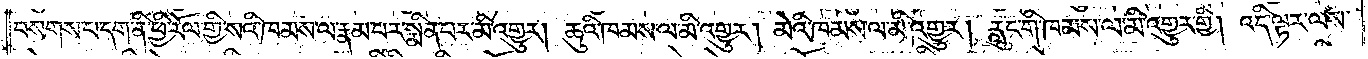བསགས་པ་དག་ནི་ཕྱི་རོལ་གྱི་སའི་ཁམས་ལ་རྣམ་པར་སྨིན་པར་མི་འགྱུར། ཆུའི་ཁམས་ལ་མི་འགྱུར། མེའི་ཁམས་ལ་མི་འགྱུར། རླུང་གི་ཁམས་ལ་མི་འགྱུར་གྱི། འདི་ལྟར་ལས་
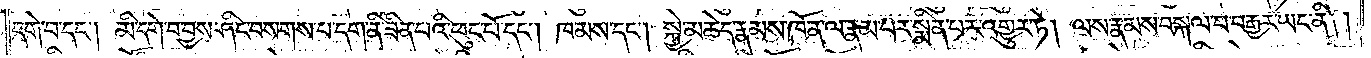དགེ་བ་དང༌། མི་དགེ་བ་བྱས་ཤིང་བསགས་པ་དག་ནི་ཟིན་པའི་ཕུང་པོ་དང༌། ཁམས་དང༌། སྐྱེ་མཆེད་རྣམས་ཁོ་ན་ལ་རྣམ་པར་སྨིན་པར་འགྱུར་ཏེ། ལས་རྣམས་བསྐལ་པ་བརྒྱར་ཡང་ནི། །
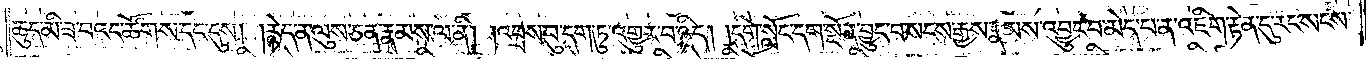ཆུད་མི་ཟ་བའང་ཚོགས་དང་དུས། །རྙེད་ན་ལུས་ཅན་རྣམས་ལ་ནི། །འབྲས་བུ་དག་ཏུ་འགྱུར་བ་ཉིད། །དགེ་སློང་དག་སྔོན་བྱུང་བ་སངས་རྒྱས་རྣམས་འབྱུང་བ་མེད་པ་ན་འཇིག་རྟེན་དུ་རང་སངས་
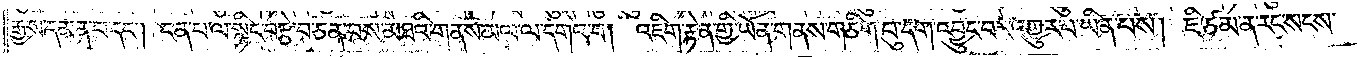རྒྱས་དམན་པ་དང༌། ངན་པ་ལ་སྙིང་བརྩེ་བ་ཅན་པས་མཐའི་གནས་མལ་ལ་དགའ་བ། འཇིག་རྟེན་གྱི་ཡོན་གནས་གཅིག་བུ་དག་འབྱུང་བར་འགྱུར་བ་ཡིན་པས། ཇི་ཙམ་ན་རང་སངས་
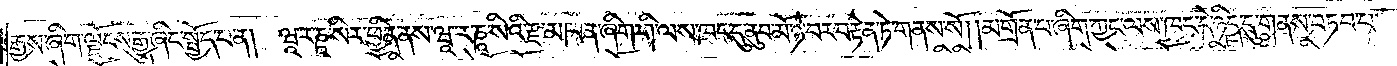རྒྱས་ཞིག་ལྗོངས་རྒྱུ་ཞིང་སྤྱོད་པ་ན། ཝཱ་ར་ཎཱ་སིར་ཕྱིན་ནས་ཝཱ་ར་ཎཱ་སིའི་རྫ་མཁན་ཞིག་གི་ལས་ཁང་དུ་ནུབ་མོ་ཉེ་བར་བརྟེན་ཏེ་གནས་སོ། །མགྲོན་པ་ཞིག་ཀྱང་ལས་ཁང་དེ་ཉིད་དུ་གནས་བཏབ་པ་
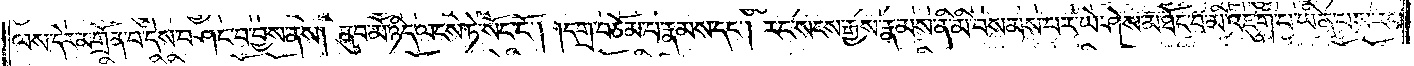ལས་དེར་མགྲོན་པ་དེས་བཤང་བ་བྱས་ནས། ནུབ་མོ་ཉིད་ལངས་ཏེ་སོང་ངོ༌། །དགྲ་བཅོམ་པ་རྣམས་དང༌། རང་སངས་རྒྱས་རྣམས་ནི་མི་བསམས་པར་ཡེ་ཤེས་མཐོང་བ་མི་འཇུག་པ་ཡིན་པས་རང་
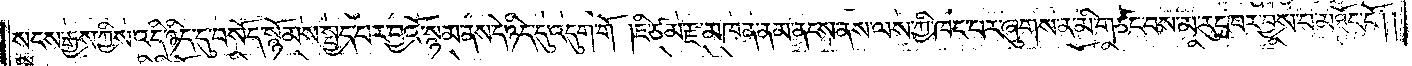སངས་རྒྱས་ཀྱིས་འདི་ཉིད་དུ་བསོད་སྙོམས་སྤྱད་པར་བྱའོ་སྙམ་ནས་དེ་ཉིད་དུ་འདུག་གོ །ཇི་ཙམ་རྫ་མཁན་ནམ་ནངས་ནས་ལས་ཀྱི་ཁང་པར་ཞུགས་ན་མི་གཙང་བས་མ་རུང་བར་བྱས་པ་མཐོང་ངོ༌༎
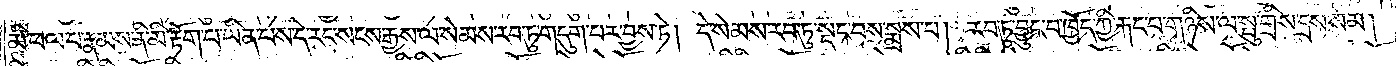མི་ཕལ་པ་རྣམས་ནི་མི་རྟོག་པ་ཡིན་པས་དེ་རང་སངས་རྒྱས་ལ་སེམས་རབ་ཏུ་གདུག་པར་བྱས་ཏེ། དེ་སེམས་རབ་ཏུ་སྡང་བས་སྨྲས་པ། རབ་ཏུ་བྱུང་བ་ཁྱོད་ཀྱི་རྐང་པ་གཉིས་ལ་སྤུ་གྲིས་དྲས་སམ།
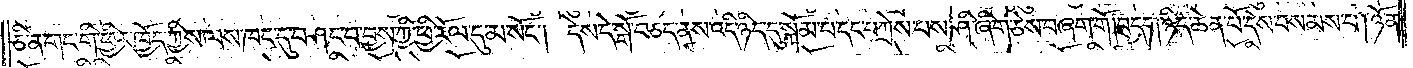ཅི་ན་གང་གི་ཕྱིར་ཁྱོད་ཀྱིས་ལས་ཁང་དུ་བཤང་བ་བྱས་ཀྱི་ཕྱི་རོལ་དུ་མ་སོང༌། དེས་དེ་སྒོ་བཅད་ནས་འདི་ཉིད་དུ་སྐོམ་པ་དང་བཀྲེས་པས་ཤི་ཞིག་ཅེས་བཞག་གོ །བདག་ཉིད་ཆེན་པོ་དེས་བསམས་པ། ཉོན་
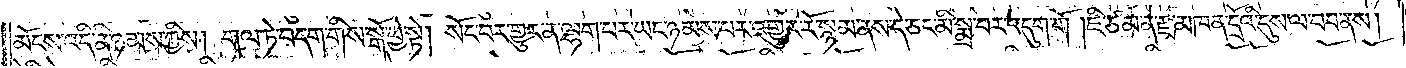མོངས་འདི་ནི་ཉམས་ཀྱིས། གལ་ཏེ་བདག་གིས་སྒོ་ཕྱེ་སྟེ། སོང་བར་གྱུར་ན་ལྷག་པར་ཡང་ཉམས་པར་འགྱུར་རོ་སྙམ་ནས་དེ་ཅང་མི་སྨྲ་བར་འདུག་གོ །ཇི་ཙམ་ན་རྫ་མཁན་དྲོའི་དུས་ལ་བབ་ནས།
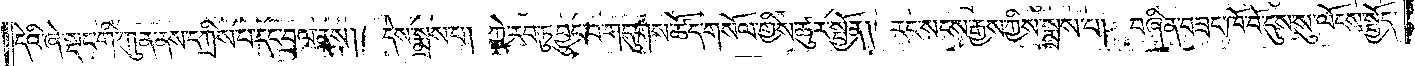དེའི་ཞེ་སྡང་གི་ཀུན་ནས་དཀྲིས་པ་དང་བྲལ་ནས། དེས་སྨྲས་པ། ཀྱེ་རབ་ཏུ་བྱུང་བ་གདུགས་ཚོད་གསོལ་གྱིས་ཚུར་སྤྱོན། རང་སངས་རྒྱས་ཀྱིས་སྨྲས་པ། བཞིན་བཟང་ཁོ་བོ་དུས་སུ་ལོངས་སྤྱོད་
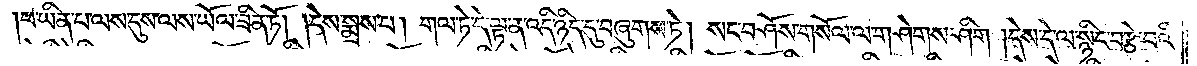།པ་ཡིན་པ་ལས་དུས་ལས་ཡོལ་ཟིན་ཏོ། །དེས་སྨྲས་པ། གལ་ཏེ་དེ་ལྟ་ན་འདི་ཉིད་དུ་བཞུགས་ཏེ། སང་བཤོས་གསོལ་ལ་གཤེགས་ཤིག །དེས་དེ་ལ་སྙིང་བརྩེ་བའི་
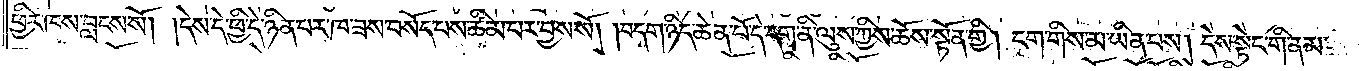ཕྱིར་ཁས་བླངས་སོ། །དེས་དེ་ཕྱི་དེ་ཉིན་པར་ཁ་ཟས་བསོད་པས་ཚིམ་པར་བྱས་སོ། །བདག་ཉིད་ཆེན་པོ་དེ་དག་ནི་ལུས་ཀྱིས་ཆོས་སྟོན་གྱི། ངག་གིས་མ་ཡིན་པས། དེས་སྟེང་གི་ནམ་
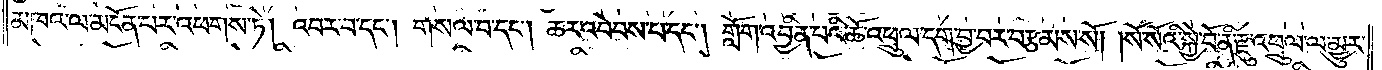མཁའ་ལ་མངོན་པར་འཕགས་ཏེ། འབར་བ་དང༌། གསལ་བ་དང༌། ཆར་འབེབས་པ་དང༌། གློག་འབྱིན་པའི་ཆོ་འཕྲུལ་དག་བྱ་བར་བརྩམས་སོ། །སོ་སོའི་སྐྱེ་བོ་ནི་རྫུ་འཕྲུལ་ལ་མྱུར་
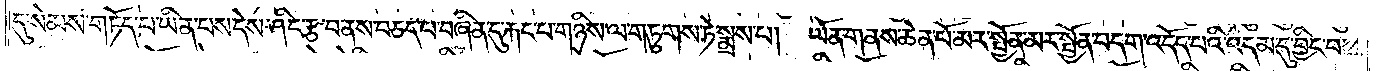དུ་སེམས་གཏོད་པ་ཡིན་པས་དེས་ཤིང་རྩ་བ་ནས་བཅད་པ་བཞིན་དུ་རྐང་པ་གཉིས་ལ་གཏུགས་ཏེ་སྨྲས་པ། ཡོན་གནས་ཆེན་པོ་མར་སྤྱོན་མར་སྤྱོན་བདག་འདོད་པའི་འདམ་དུ་བྱིང་བ་
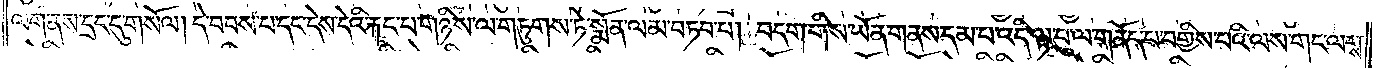ལག་ནས་དྲང་དུ་གསོལ། དེ་བབས་པ་དང་དེས་དེའི་རྐང་པ་གཉིས་ལ་གཏུགས་ཏེ་སྨོན་ལམ་བཏབ་པ། བདག་གི་ས་ཡོན་གནས་དམ་པ་འདི་ལྟ་བུ་ལ་གནོད་པ་བགྱིས་པའི་ལས་གང་ལགས་
